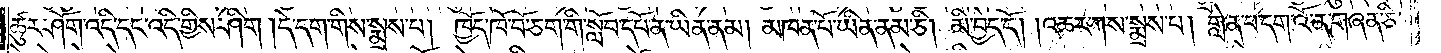ཚུར་ཤོག་འདི་དང་འདི་གྱིས་ཤིག །དེ་དག་གིས་སྨྲས་པ། ཁྱོད་ཁོ་བོ་ཅག་གི་སློབ་དཔོན་ཡིན་ནམ། མཁན་པོ་ཡིན་ནམ་ཅི། མི་བྱེད་དོ། །འཆར་ཀས་སྨྲས་པ། གླེན་པ་དག་འོ་ན་གཞན་ཅི་
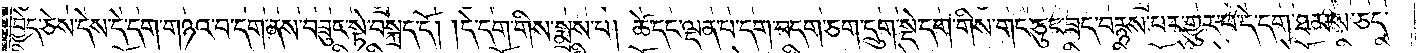བྱེད་ཅེས་དེས་དེ་དག་གཉའ་བ་དག་ནས་བཟུང་སྟེ་བསྐྲད་དོ། །དེ་དག་གིས་སྨྲས་པ། ཚེ་དང་ལྡན་པ་དག་བདག་ཅག་དྲུག་སྡེ་དག་གིས་གང་ཅུང་ཟད་བརྙས་པར་གྱུར་པ་དེ་དག་ཐམས་ཅད་
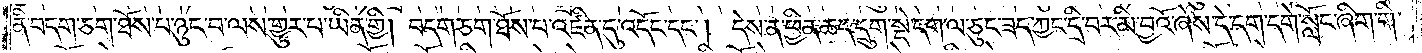ནི་བདག་ཅག་ཐོས་པ་ཉུང་བ་ལས་གྱུར་པ་ཡིན་གྱི། བདག་ཅག་ཐོས་པ་འཛིན་དུ་འདོང་དང༌། དེས་ན་ཕྱིན་ཆད་དྲུག་སྡེ་དག་ལ་ཅུང་ཟད་ཀྱང་དྲི་བར་མི་བྱའོ་ཞེས་དེ་དག་དགེ་སློང་ཞིག་གི་
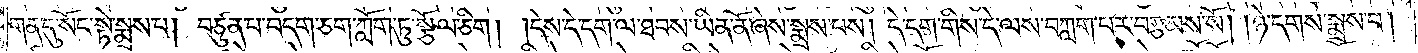གན་དུ་སོང་སྟེ་སྨྲས་པ། བཙུན་པ་བདག་ཅག་ཀློག་ཏུ་སྩོལ་ཅིག། །དེས་དེ་དག་ལ་ཐབས་ཡིན་ནོ་ཞེས་སྨྲས་པ། དེ་དག་གིས་དེ་ལས་བཀླག་པར་བརྩམས་སོ། །ཉེ་དགས་སྨྲས་པ།
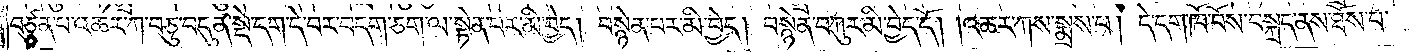བཙུན་པ་འཆར་ཀ་བཅུ་བདུན་སྡེ་དག་དེ་བར་བདག་ཅག་ལ་སྟེན་པར་མི་བྱེད། བསྙེན་པར་མི་བྱེད། བསྙེན་བཀུར་མི་བྱེད་དོ། །འཆར་ཀས་སྨྲས་པ། དེ་དག་ཁོ་བོས་བསྐྲད་ནས་ཐོས་པ་
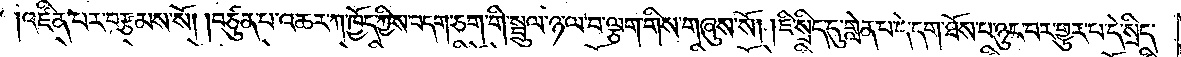འཛིན་པར་བརྩམས་སོ། །བཙུན་པ་འཆར་ཀ་ཁྱོད་ཀྱིས་བདག་ཅག་གི་སྦྲུལ་ཉ་ལ་བ་ལྕག་གིས་གཞུས་སོ། །ཇི་སྲིད་དུ་གླེན་པ་དེ་དག་ཐོས་པ་ཉུང་བར་གྱུར་པ་དེ་སྲིད་
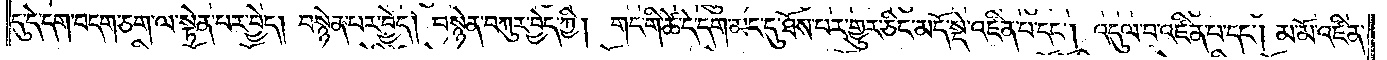དུ་དེ་དག་བདག་ཅག་ལ་སྟེན་པར་བྱེད། བསྙེན་པར་བྱེད། བསྙེན་བཀུར་བྱེད་ཀྱི། གང་གི་ཚེ་དེ་དག་མང་དུ་ཐོས་པར་གྱུར་ཅིང་མདོ་སྡེ་འཛིན་པ་དང༌། འདུལ་བ་འཛིན་པ་དང༌། མ་མོ་འཛིན་
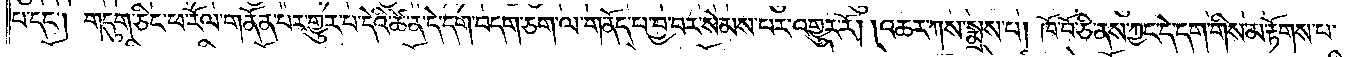པ་དང༌། གདུག་ཅིང་ཕ་རོལ་གནོན་པར་གྱུར་པ་དེའི་ཚེ་ན་དེ་དག་བདག་ཅག་ལ་གནོད་པ་བྱ་བར་སེམས་པར་འགྱུར་རོ། །འཆར་ཀས་སྨྲས་པ། ཁོ་བོ་ཅི་ནས་ཀྱང་དེ་དག་གིས་མ་རྟོགས་པ་
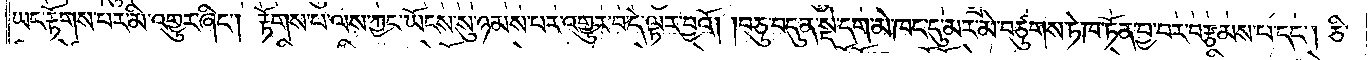ཡང་རྟོགས་པར་མི་འགྱུར་ཞིང༌། རྟོགས་པ་ལས་ཀྱང་ཡོངས་སུ་ཉམས་པར་འགྱུར་བ་དེ་ལྟར་བྱའོ། །བཅུ་བདུན་སྡེ་དག་མེ་ཁང་དུ་མར་མེ་བཙུགས་ཏེ་ཁ་ཏོན་བྱ་བར་བརྩམས་པ་དང༌། ཅི་
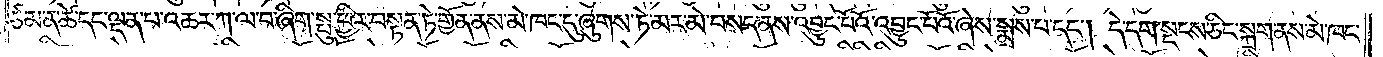ཙམ་ན་ཚེ་དང་ལྡན་པ་འཆར་ཀ་ལ་བ་ཞིག་སྤུ་ཕྱིར་བསྟན་ཏེ་གྱོན་ནས་མེ་ཁང་དུ་ཞུགས་ཏེ་མར་མེ་བསད་ནས་འབྱུང་པོའོ་ཞེས་སྨྲས་པ་དང༌། དེ་དག་སྡངས་ཅིང་སྐྲག་ནས་མེ་ཁང་
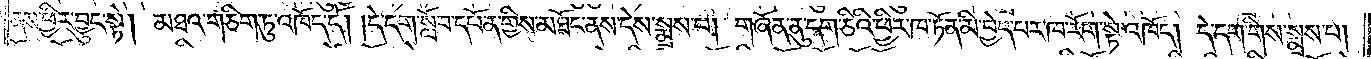ནས་ཕྱིར་བྱུང་སྟེ། མཐའ་གཅིག་ཏུ་འཁོད་དོ། །དེ་དག་སློབ་དཔོན་གྱིས་མཐོང་ནས་དེས་སྨྲས་པ། གཞོན་ནུ་དག་ཅིའི་ཕྱིར་ཁ་ཏོན་མི་བྱེད་པར་ཁ་རོག་སྟེ་འཁོད། དེ་དག་གིས་སྨྲས་པ།
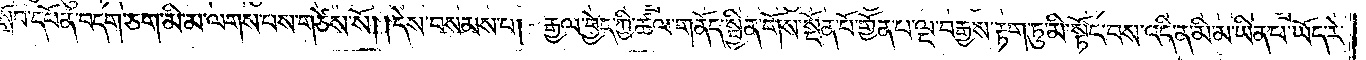སློབ་དཔོན་བདག་ཅག་མི་མ་ལགས་པས་གཙེས་སོ། །དེས་བསམས་པ། རྒྱལ་བྱེད་ཀྱི་ཚལ་གནོད་སྦྱིན་གོས་སྔོན་པོ་གྱོན་པ་ལྔ་བརྒྱས་རྟག་ཏུ་མི་སྟོང་བས་འདི་ན་མི་མ་ཡིན་པ་ཡོད་རེ་
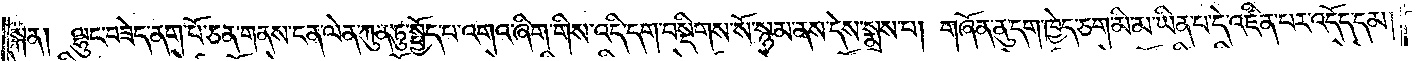སྐན། ལྷུང་བཟེད་ནག་པོ་ཅན་གནས་ངན་ལེན་ཀུན་ཏུ་སྤྱོད་པ་འགའ་ཞིག་གིས་འདི་དག་བསྡིགས་སོ་སྙམ་ནས་དེས་སྨྲས་པ། གཞོན་ནུ་དག་ཁྱེད་ཅག་མི་མ་ཡིན་པ་དེ་འཛིན་པར་འདོད་དམ།
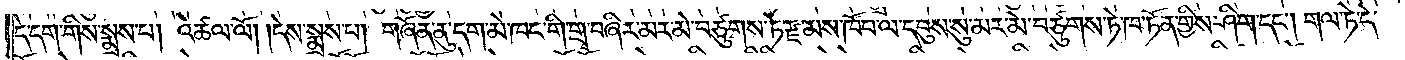དེ་དག་གིས་སྨྲས་པ། འཚལ་ལོ། །དེས་སྨྲས་པ། གཞོན་ནུ་དག་མེ་ཁང་གི་གྲྭ་བཞིར་མར་མེ་བཙུགས་ཏེ་རྫ་མས་ཁོབ་ལ་དབུས་སུ་མར་མེ་བཙུགས་ཏེ་ཁ་ཏོན་གྱིས་ཤིག་དང༌། གལ་ཏེ་དེ་
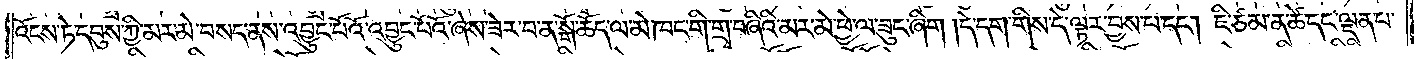འོངས་ཏེ་དབུས་ཀྱི་མར་མེ་བསད་ནས་འབྱུང་པོའོ་འབྱུང་པོའོ་ཞེས་ཟེར་བ་ན་སྒོ་ཆོད་ལ་མེ་ཁང་གི་གྲྭ་བཞིའི་མར་མེ་ཕྱེ་ལ་ཟུང་ཞིག །དེ་དག་གིས་དེ་ལྟར་བྱས་པ་དང༌། ཇི་ཙམ་ན་ཚེ་དང་ལྡན་པ་
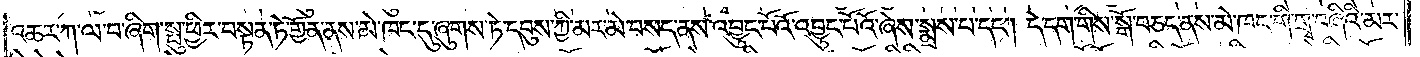འཆར་ཀ་ལ་བ་ཞིག་སྤུ་ཕྱིར་བསྟན་ཏེ་གྱོན་ནས་མེ་ཁང་དུ་ཞུགས་ཏེ་དབུས་ཀྱི་མར་མེ་བསད་ནས་འབྱུང་པོའོ་འབྱུང་པོའོ་ཞེས་སྨྲས་པ་དང༌། དེ་དག་གིས་སྒོ་བཅད་ནས་མེ་ཁང་གི་གྲྭ་བཞིའི་མར་
